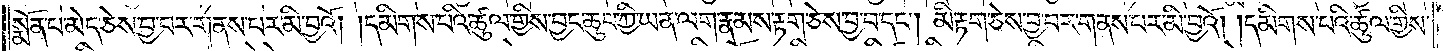སྨོན་པ་མེད་ཅེས་བྱ་བར་གནས་པར་མི་བྱའོ། །དམིགས་པའི་ཚུལ་གྱིས་བྱང་ཆུབ་ཀྱི་ཡན་ལག་རྣམས་རྟག་ཅེས་བྱ་བ་དང༌། མི་རྟག་ཅེས་བྱ་བར་གནས་པར་མི་བྱའོ། །དམིགས་པའི་ཚུལ་གྱིས་
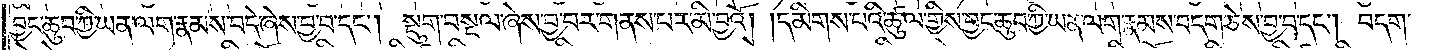བྱང་ཆུབ་ཀྱི་ཡན་ལག་རྣམས་བདེ་ཞེས་བྱ་བ་དང༌། སྡུག་བསྔལ་ཞེས་བྱ་བར་གནས་པར་མི་བྱའོ། །དམིགས་པའི་ཚུལ་གྱིས་བྱང་ཆུབ་ཀྱི་ཡན་ལག་རྣམས་བདག་ཅེས་བྱ་བ་དང༌། བདག་
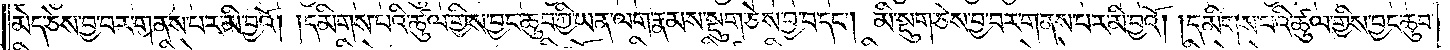མེད་ཅེས་བྱ་བར་གནས་པར་མི་བྱའོ། །དམིགས་པའི་ཚུལ་གྱིས་བྱང་ཆུབ་ཀྱི་ཡན་ལག་རྣམས་སྡུག་ཅེས་བྱ་བ་དང༌། མི་སྡུག་ཅེས་བྱ་བར་གནས་པར་མི་བྱའོ། །དམིགས་པའི་ཚུལ་གྱིས་བྱང་ཆུབ་
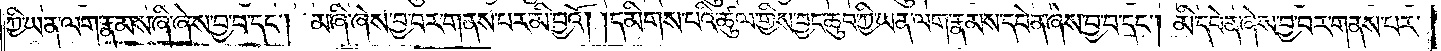ཀྱི་ཡན་ལག་རྣམས་ཞི་ཞེས་བྱ་བ་དང༌། མ་ཞི་ཞེས་བྱ་བར་གནས་པར་མི་བྱའོ། །དམིགས་པའི་ཚུལ་གྱིས་བྱང་ཆུབ་ཀྱི་ཡན་ལག་རྣམས་དབེན་ཞེས་བྱ་བ་དང༌། མི་དབེན་ཞེས་བྱ་བར་གནས་པར་
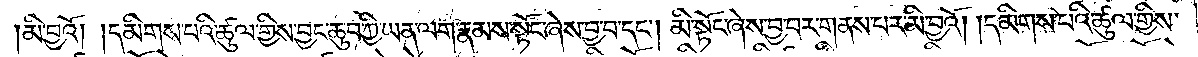མི་བྱའོ། །དམིགས་པའི་ཚུལ་གྱིས་བྱང་ཆུབ་ཀྱི་ཡན་ལག་རྣམས་སྟོང་ཞེས་བྱ་བ་དང༌། མི་སྟོང་ཞེས་བྱ་བར་གནས་པར་མི་བྱའོ། །དམིགས་པའི་ཚུལ་གྱིས་
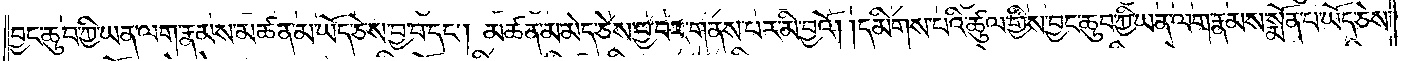བྱང་ཆུབ་ཀྱི་ཡན་ལག་རྣམས་མཚན་མ་ཡོད་ཅེས་བྱ་བ་དང༌། མཚན་མ་མེད་ཅེས་བྱ་བར་གནས་པར་མི་བྱའོ། །དམིགས་པའི་ཚུལ་གྱིས་བྱང་ཆུབ་ཀྱི་ཡན་ལག་རྣམས་སྨོན་པ་ཡོད་ཅེས་
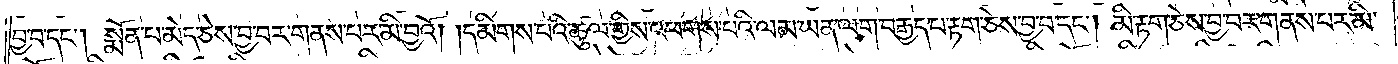བྱ་བ་དང༌། སྨོན་པ་མེད་ཅེས་བྱ་བར་གནས་པར་མི་བྱའོ། །དམིགས་པའི་ཚུལ་གྱིས་འཕགས་པའི་ལམ་ཡན་ལག་བརྒྱད་པ་རྟག་ཅེས་བྱ་བ་དང༌། མི་རྟག་ཅེས་བྱ་བར་གནས་པར་མི་
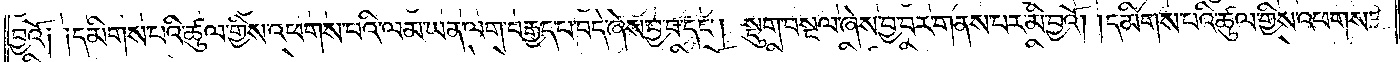བྱའོ། །དམིགས་པའི་ཚུལ་གྱིས་འཕགས་པའི་ལམ་ཡན་ལག་བརྒྱད་པ་བདེ་ཞེས་བྱ་བ་དང༌། སྡུག་བསྔལ་ཞེས་བྱ་བར་གནས་པར་མི་བྱའོ། །དམིགས་པའི་ཚུལ་གྱིས་འཕགས་
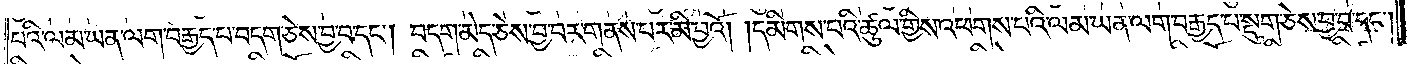པའི་ལམ་ཡན་ལག་བརྒྱད་པ་བདག་ཅེས་བྱ་བ་དང༌། །བདག་མེད་ཅེས་བྱ་བར་གནས་པར་མི་བྱའོ། །དམིགས་པའི་ཚུལ་གྱིས་འཕགས་པའི་ལམ་ཡན་ལག་བརྒྱད་པ་སྡུག་ཅེས་བྱ་བ་དང༌།
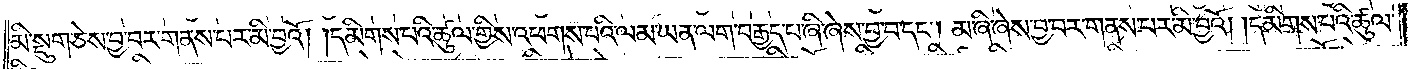མི་སྡུག་ཅེས་བྱ་བར་གནས་པར་མི་བྱའོ། །དམིགས་པའི་ཚུལ་གྱིས་འཕགས་པའི་ལམ་ཡན་ལག་བརྒྱད་པ་ཞི་ཞེས་བྱ་བ་དང༌། མ་ཞི་ཞེས་བྱ་བར་གནས་པར་མི་བྱའོ། །དམིགས་པའི་ཚུལ་
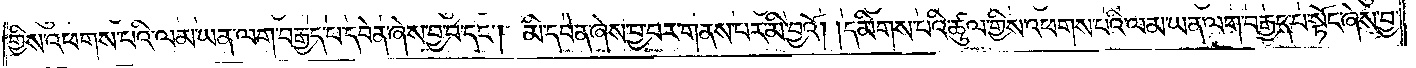གྱིས་འཕགས་པའི་ལམ་ཡན་ལག་བརྒྱད་པ་དབེན་ཞེས་བྱ་བ་དང༌། མི་དབེན་ཞེས་བྱ་བར་གནས་པར་མི་བྱའོ། །དམིགས་པའི་ཚུལ་གྱིས་འཕགས་པའི་ལམ་ཡན་ལག་བརྒྱད་པ་སྟོང་ཞེས་བྱ་
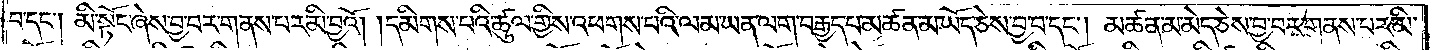བ་དང༌། མི་སྟོང་ཞེས་བྱ་བར་གནས་པར་མི་བྱའོ། །དམིགས་པའི་ཚུལ་གྱིས་འཕགས་པའི་ལམ་ཡན་ལག་བརྒྱད་པ་མཚན་མ་ཡོད་ཅེས་བྱ་བ་དང༌། མཚན་མ་མེད་ཅེས་བྱ་བར་གནས་པར་མི་
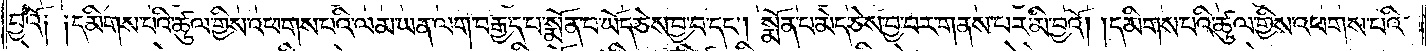བྱའོ༏ ༏དམིགས་པའི་ཚུལ་གྱིས་འཕགས་པའི་ལམ་ཡན་ལག་བརྒྱད་པ་སྨོན་པ་ཡོད་ཅེས་བྱ་བ་དང༌། སྨོན་པ་མེད་ཅེས་བྱ་བར་གནས་པར་མི་བྱའོ། །དམིགས་པའི་ཚུལ་གྱིས་འཕགས་པའི་
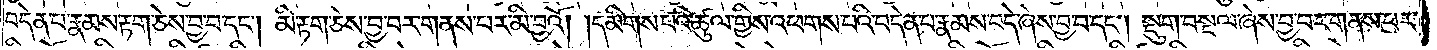བདེན་པ་རྣམས་རྟག་ཅེས་བྱ་བ་དང༌། མི་རྟག་ཅེས་བྱ་བར་གནས་པར་མི་བྱའོ། །དམིགས་པའི་ཚུལ་གྱིས་འཕགས་པའི་བདེན་པ་རྣམས་བདེ་ཞེས་བྱ་བ་དང༌། སྡུག་བསྔལ་ཞེས་བྱ་བར་གནས་པར་
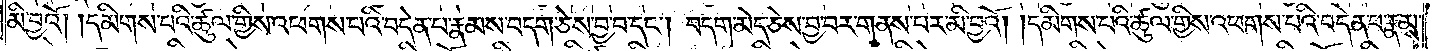མི་བྱའོ། །དམིགས་པའི་ཚུལ་གྱིས་འཕགས་པའི་བདེན་པ་རྣམས་བདག་ཅེས་བྱ་བ་དང༌། བདག་མེད་ཅེས་བྱ་བར་གནས་པར་མི་བྱའོ། །དམིགས་པའི་ཚུལ་གྱིས་འཕགས་པའི་བདེན་པ་རྣམས་
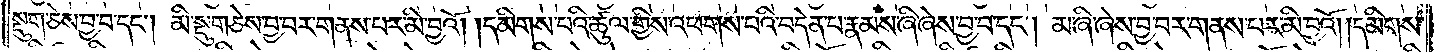སྡུག་ཅེས་བྱ་བ་དང༌། མི་སྡུག་ཅེས་བྱ་བར་གནས་པར་མི་བྱའོ། །དམིགས་པའི་ཚུལ་གྱིས་འཕགས་པའི་བདེན་པ་རྣམས་ཞི་ཞེས་བྱ་བ་དང༌། མ་ཞི་ཞེས་བྱ་བར་གནས་པར་མི་བྱའོ། །དམིགས་
